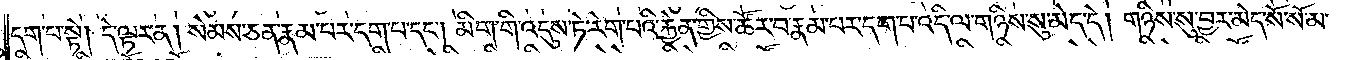དག་པ་སྟེ། དེ་ལྟར་ན། སེམས་ཅན་རྣམ་པར་དག་པ་དང༌། མིག་གི་འདུས་ཏེ་རེག་པའི་རྐྱེན་གྱིས་ཚོར་བ་རྣམ་པར་དག་པ་འདི་ལ་གཉིས་སུ་མེད་དེ། གཉིས་སུ་བྱར་མེད་སོ་སོ་མ་
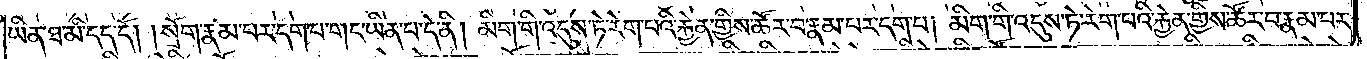ཡིན་ཐ་མི་དད་དོ། །སྲོག་རྣམ་པར་དག་པ་གང་ཡིན་པ་དེ་ནི། མིག་གི་འདུས་ཏེ་རེག་པའི་རྐྱེན་གྱིས་ཚོར་བ་རྣམ་པར་དག་པ། མིག་གི་འདུས་ཏེ་རེག་པའི་རྐྱེན་གྱིས་ཚོར་བ་རྣམ་པར་
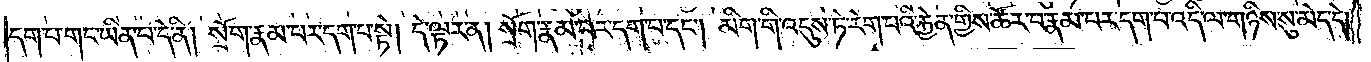དག་པ་གང་ཡིན་པ་དེ་ནི། སྲོག་རྣམ་པར་དག་པ་སྟེ། དེ་ལྟར་ན། སྲོག་རྣམ་པར་དག་པ་དང༌། མིག་གི་འདུས་ཏེ་རེག་པའི་རྐྱེན་གྱིས་ཚོར་བ་རྣམ་པར་དག་པ་འདི་ལ་གཉིས་སུ་མེད་དེ།
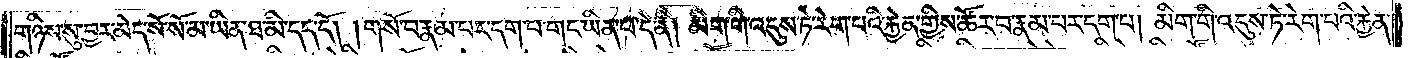གཉིས་སུ་བྱར་མེད་སོ་སོ་མ་ཡིན་ཐ་མི་དད་དོ། །གསོ་བ་རྣམ་པར་དག་པ་གང་ཡིན་པ་དེ་ནི། མིག་གི་འདུས་ཏེ་རེག་པའི་རྐྱེན་གྱིས་ཚོར་བ་རྣམ་པར་དག་པ། མིག་གི་འདུས་ཏེ་རེག་པའི་རྐྱེན་
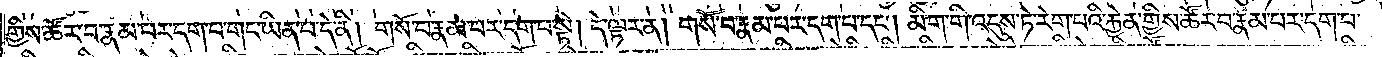གྱིས་ཚོར་བ་རྣམ་པར་དག་པ་གང་ཡིན་པ་དེ་ནི། གསོ་བ་རྣམ་པར་དག་པ་སྟེ། དེ་ལྟར་ན། གསོ་བ་རྣམ་པར་དག་པ་དང༌། མིག་གི་འདུས་ཏེ་རེག་པའི་རྐྱེན་གྱིས་ཚོར་བ་རྣམ་པར་དག་པ་
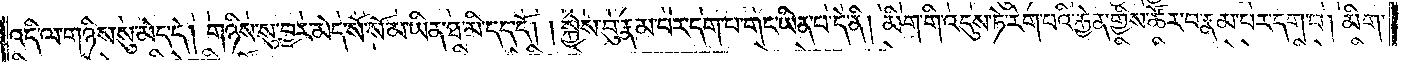འདི་ལ་གཉིས་སུ་མེད་དེ། གཉིས་སུ་བྱར་མེད་སོ་སོ་མ་ཡིན་ཐ་མི་དད་དོ། །སྐྱེས་བུ་རྣམ་པར་དག་པ་གང་ཡིན་པ་དེ་ནི། མིག་གི་འདུས་ཏེ་རེག་པའི་རྐྱེན་གྱིས་ཚོར་བ་རྣམ་པར་དག་པ། མིག་
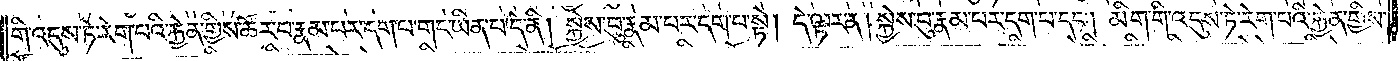གི་འདུས་ཏེ་རེག་པའི་རྐྱེན་གྱིས་ཚོར་བ་རྣམ་པར་དག་པ་གང་ཡིན་པ་དེ་ནི། སྐྱེས་བུ་རྣམ་པར་དག་པ་སྟེ། དེ་ལྟར་ན། སྐྱེས་བུ་རྣམ་པར་དག་པ་དང༌། མིག་གི་འདུས་ཏེ་རེག་པའི་རྐྱེན་གྱིས་
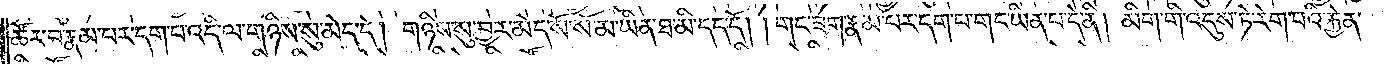ཚོར་བ་རྣམ་པར་དག་པ་འདི་ལ་གཉིས་སུ་མེད་དེ། གཉིས་སུ་བྱར་མེད་སོ་སོ་མ་ཡིན་ཐ་མི་དད་དོ། །གང་ཟག་རྣམ་པར་དག་པ་གང་ཡིན་པ་དེ་ནི། མིག་གི་འདུས་ཏེ་རེག་པའི་རྐྱེན་
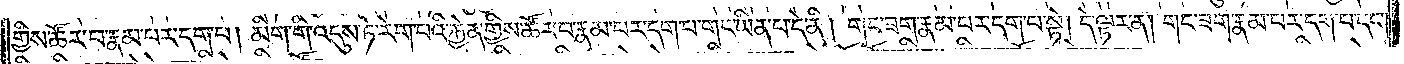གྱིས་ཚོར་བ་རྣམ་པར་དག་པ། མིག་གི་འདུས་ཏེ་རེག་པའི་རྐྱེན་གྱིས་ཚོར་བ་རྣམ་པར་དག་པ་གང་ཡིན་པ་དེ་ནི། གང་ཟག་རྣམ་པར་དག་པ་སྟེ། དེ་ལྟར་ན། གང་ཟག་རྣམ་པར་དག་པ་དང༌།
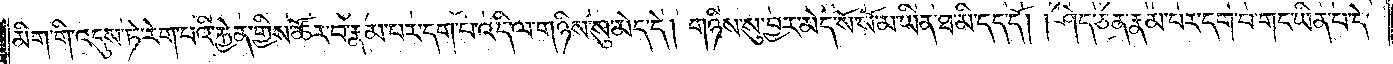མིག་གི་འདུས་ཏེ་རེག་པའི་རྐྱེན་གྱིས་ཚོར་བ་རྣམ་པར་དག་པ་འདི་ལ་གཉིས་སུ་མེད་དེ། གཉིས་སུ་བྱར་མེད་སོ་སོ་མ་ཡིན་ཐ་མི་དད་དོ། །ཤེད་ཅན་རྣམ་པར་དག་པ་གང་ཡིན་པ་དེ་
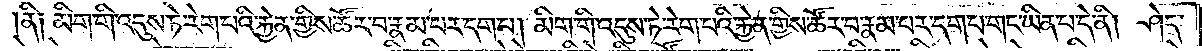ནི༑ མིག་གི་འདུས་ཏེ་རེག་པའི་རྐྱེན་གྱིས་ཚོར་བ་རྣམ་པར་དག་པ། མིག་གི་འདུས་ཏེ་རེག་པའི་རྐྱེན་གྱིས་ཚོར་བ་རྣམ་པར་དག་པ་གང་ཡིན་པ་དེ་ནི། ཤེད་
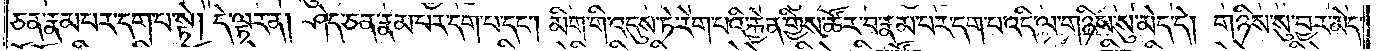ཅན་རྣམ་པར་དག་པ་སྟེ། དེ་ལྟར་ན། ཤེད་ཅན་རྣམ་པར་དག་པ་དང༌། མིག་གི་འདུས་ཏེ་རེག་པའི་རྐྱེན་གྱིས་ཚོར་བ་རྣམ་པར་དག་པ་འདི་ལ་གཉིས་སུ་མེད་དེ། གཉིས་སུ་བྱར་མེད་
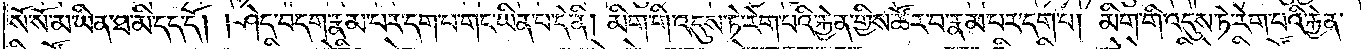སོ་སོ་མ་ཡིན་ཐ་མི་དད་དོ། །ཤེད་བདག་རྣམ་པར་དག་པ་གང་ཡིན་པ་དེ་ནི། མིག་གི་འདུས་ཏེ་རེག་པའི་རྐྱེན་གྱིས་ཚོར་བ་རྣམ་པར་དག་པ། མིག་གི་འདུས་ཏེ་རེག་པའི་རྐྱེན་
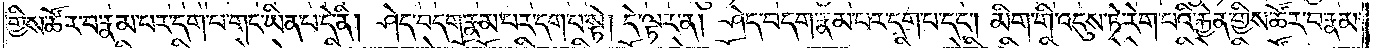གྱིས་ཚོར་བ་རྣམ་པར་དག་པ་གང་ཡིན་པ་དེ་ནི། ཤེད་བདག་རྣམ་པར་དག་པ་སྟེ། དེ་ལྟར་ན། ཤེད་བདག་རྣམ་པར་དག་པ་དང༌། མིག་གི་འདུས་ཏེ་རེག་པའི་རྐྱེན་གྱིས་ཚོར་བ་རྣམ་
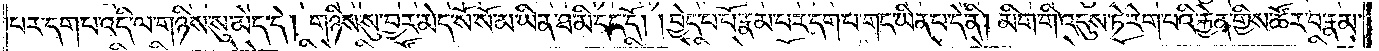པར་དག་པ་འདི་ལ་གཉིས་སུ་མེད་དེ། གཉིས་སུ་བྱར་མེད་སོ་སོ་མ་ཡིན་ཐ་མི་དད་དོ། །བྱེད་པ་པོ་རྣམ་པར་དག་པ་གང་ཡིན་པ་དེ་ནི། མིག་གི་འདུས་ཏེ་རེག་པའི་རྐྱེན་གྱིས་ཚོར་བ་རྣམ་
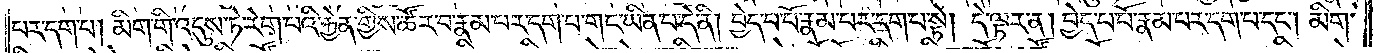པར་དག་པ། མིག་གི་འདུས་ཏེ་རེག་པའི་རྐྱེན་གྱིས་ཚོར་བ་རྣམ་པར་དག་པ་གང་ཡིན་པ་དེ་ནི། བྱེད་པ་པོ་རྣམ་པར་དག་པ་སྟེ། དེ་ལྟར་ན། བྱེད་པ་པོ་རྣམ་པར་དག་པ་དང༌། མིག་
